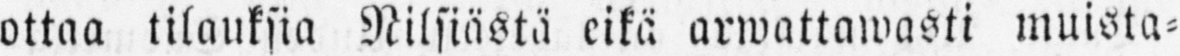ottaa tilauksia Nilsiästä eikä arwattawasti muista-
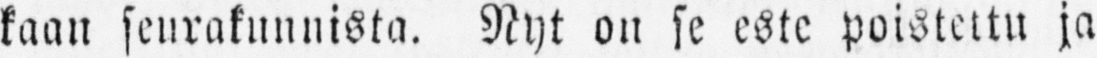kaan seurakunnista. Nyt on se este poistettu ja
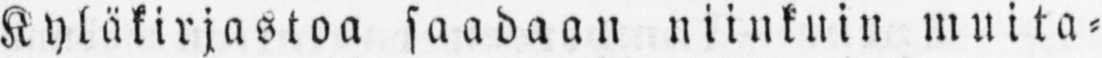Kyläkirjastoa saadaan niinkuin muita-
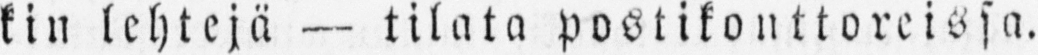kin lehtejä — tilata postikonttoreissa.
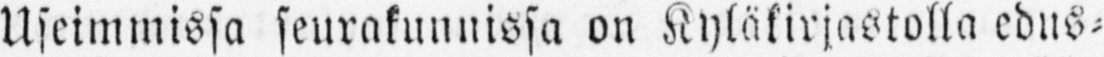Useimmissa seurakunnissa on Kyläkirjastolla edus-
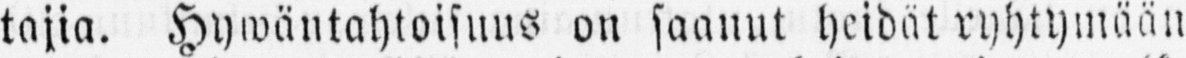tajia. Hywäntahtoisuns on saanut heidät ryhtymään
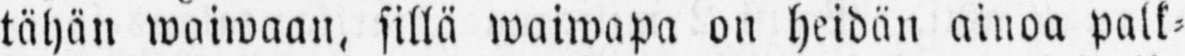tähän waiwaan, sillä waiwapa on heidän ainoa pal-
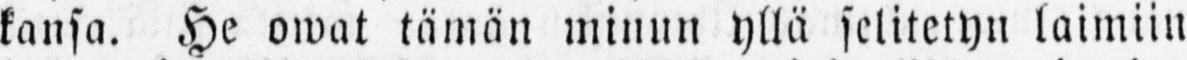kansa. He owat tämän minun yllä selitetyn laimiin
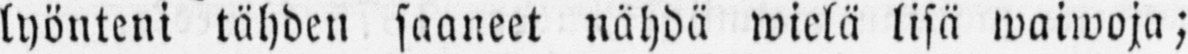lyönteni tähden saaneet nähdä wielä lisä waiwoja;
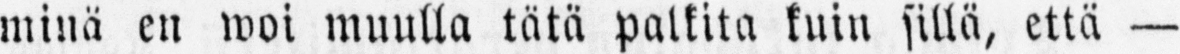minä en woi muulla tätä palkita kuin sillä, että —
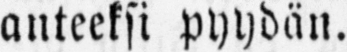anteeksi pyydän.
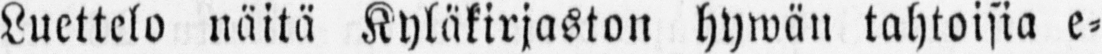Luettelo näitä Kyläkirjaston hywän tahtoisia e-
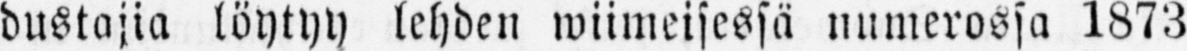dustajia löytyy lehden wiimeisessä numerossa 1873
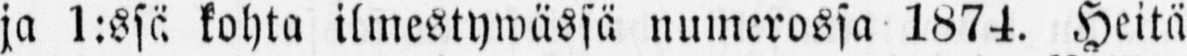ja 1:ssä kohta ilmestywässä numerossa 1874. Heitä
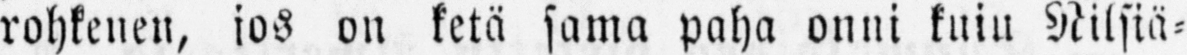rohkenen, jos on ketä sama paha onni kuin Nilsiä-
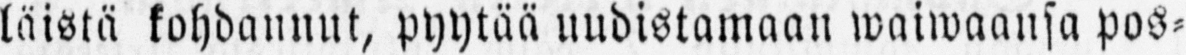läistä kohdannut, pyytää uudistamaan waiwaansa pos-
